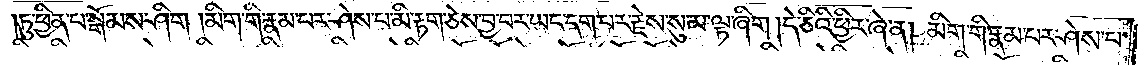ཏུ་ཕྱིན་པ་སྒོམས་ཤིག །མིག་གི་རྣམ་པར་ཤེས་པ་མི་རྟག་ཅེས་བྱ་བར་ཡང་དག་པར་རྗེས་སུ་མ་ལྟ་ཞིག །དེ་ཅིའི་ཕྱིར་ཞེ་ན། མིག་གི་རྣམ་པར་ཤེས་པ་
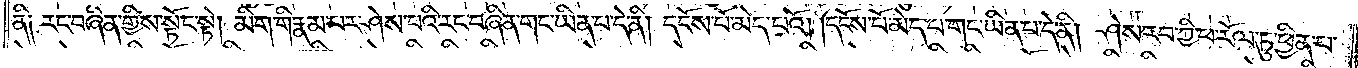ནི༑ རང་བཞིན་གྱིས་སྟོང་སྟེ། མིག་གི་རྣམ་པར་ཤེས་པའི་རང་བཞིན་གང་ཡིན་པ་དེ་ནི། དངོས་པོ་མེད་པའོ། །དངོས་པོ་མེད་པ་གང་ཡིན་པ་དེ་ནི། ཤེས་རབ་ཀྱི་ཕ་རོལ་ཏུ་ཕྱིན་པ་
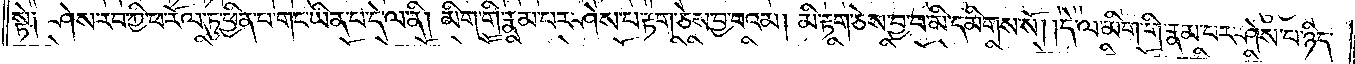སྟེ༑ ཤེས་རབ་ཀྱི་ཕ་རོལ་ཏུ་ཕྱིན་པ་གང་ཡིན་པ་དེ་ལ་ནི། མིག་གི་རྣམ་པར་ཤེས་པ་རྟག་ཅེས་བྱ་བའམ། མི་རྟག་ཅེས་བྱ་བ་མི་དམིགས་སོ། །དེ་ལ་མིག་གི་རྣམ་པར་ཤེས་པ་ཉིད་
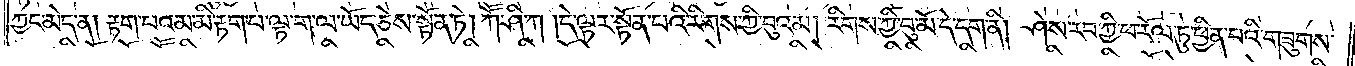ཀྱང་མེད་ན། རྟག་པའམ་མི་རྟག་པ་ལྟ་ག་ལ་ཡོད་ཅེས་སྟོན་ཏེ། ཀཽ་ཤི་ཀ། དེ་ལྟར་སྟོན་པའི་རིགས་ཀྱི་བུའམ། རིགས་ཀྱི་བུ་མོ་དེ་དག་ནི། ཤེས་རབ་ཀྱི་ཕ་རོལ་ཏུ་ཕྱིན་པའི་གཟུགས་
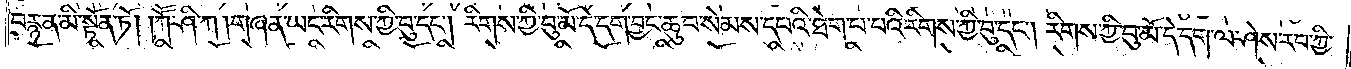བརྙན་མི་སྟོན་ཏོ། །ཀཽ་ཤི་ཀ། གཞན་ཡང་རིགས་ཀྱི་བུ་དང༌། རིགས་ཀྱི་བུ་མོ་དེ་དག་བྱང་ཆུབ་སེམས་དཔའི་ཐེག་པ་པའི་རིགས་ཀྱི་བུ་དང༌། རིགས་ཀྱི་བུ་མོ་དེ་དག་ལ་ཤེས་རབ་ཀྱི་
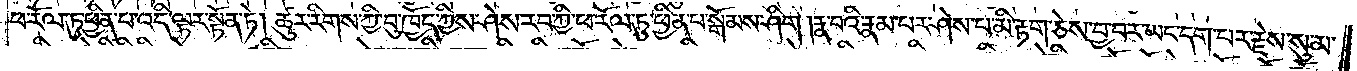ཕ་རོལ་ཏུ་ཕྱིན་པ་འདི་ལྟར་སྟོན་ཏེ། ཚུར་རིགས་ཀྱི་བུ་ཁྱོད་ཀྱིས་ཤེས་རབ་ཀྱི་ཕ་རོལ་ཏུ་ཕྱིན་པ་སྒོམས་ཤིག །རྣ་བའི་རྣམ་པར་ཤེས་པ་མི་རྟག་ཅེས་བྱ་བར་ཡང་དག་པར་རྗེས་སུ་མ་
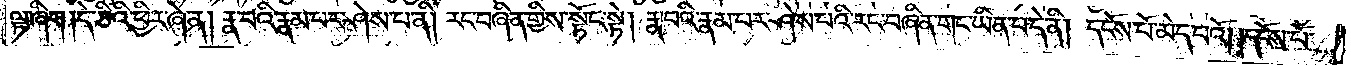ལྟ་ཞིག །དེ་ཅིའི་ཕྱིར་ཞེ་ན། རྣ་བའི་རྣམ་པར་ཤེས་པ་ནི། རང་བཞིན་གྱིས་སྟོང་སྟེ། རྣ་བའི་རྣམ་པར་ཤེས་པའི་རང་བཞིན་གང་ཡིན་པ་དེ་ནི། དངོས་པོ་མེད་པའོ། །དངོས་པོ་
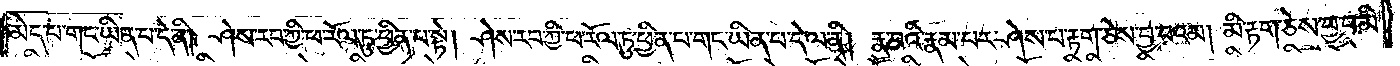མེད་པ་གང་ཡིན་པ་དེ་ནི། ཤེས་རབ་ཀྱི་ཕ་རོལ་ཏུ་ཕྱིན་པ་སྟེ། ཤེས་རབ་ཀྱི་ཕ་རོལ་ཏུ་ཕྱིན་པ་གང་ཡིན་པ་དེ་ལ་ནི། རྣ་བའི་རྣམ་པར་ཤེས་པ་རྟག་ཅེས་བྱ་བའམ། མི་རྟག་ཅེས་བྱ་བ་མི་
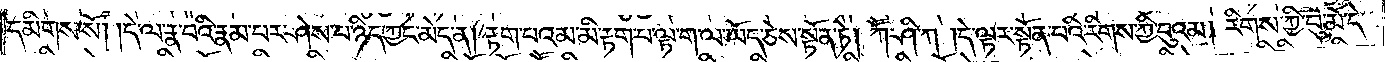དམིགས་སོ། །དེ་ལ་རྣ་བའི་རྣམ་པར་ཤེས་པ་ཉིད་ཀྱང་མེད་ན། རྟག་པའམ་མི་རྟག་པ་ལྟ་ག་ལ་ཡོད་ཅེས་སྟོན་ཏེ། ཀཽ་ཤི་ཀ། དེ་ལྟར་སྟོན་པའི་རིགས་ཀྱི་བུའམ། རིགས་ཀྱི་བུ་མོ་དེ་
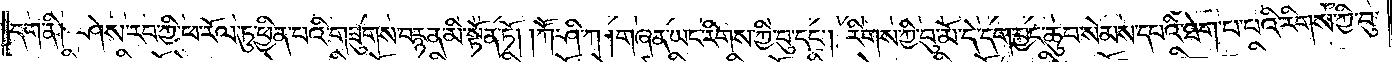དག་ནི། ཤེས་རབ་ཀྱི་ཕ་རོལ་ཏུ་ཕྱིན་པའི་གཟུགས་བརྙན་མི་སྟོན་ཏོ། །ཀཽ་ཤི་ཀ། གཞན་ཡང་རིགས་ཀྱི་བུ་དང༌། རིགས་ཀྱི་བུ་མོ་དེ་དག་བྱང་ཆུབ་སེམས་དཔའི་ཐེག་པ་པའི་རིགས་ཀྱི་བུ་
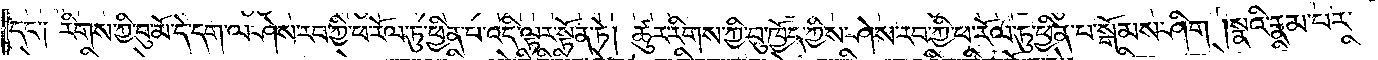དང་༑ རིགས་ཀྱི་བུ་མོ་དེ་དག་ལ་ཤེས་རབ་ཀྱི་ཕ་རོལ་ཏུ་ཕྱིན་པ་འདི་ལྟར་སྟོན་ཏེ། ཚུར་རིགས་ཀྱི་བུ་ཁྱོད་ཀྱིས་ཤེས་རབ་ཀྱི་ཕ་རོལ་ཏུ་ཕྱིན་པ་སྒོམས་ཤིག །སྣའི་རྣམ་པར་
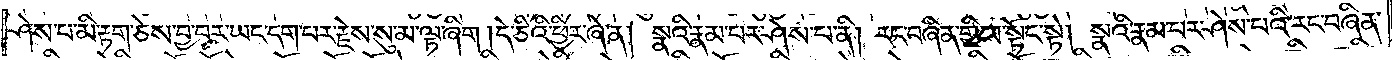ཤེས་པ་མི་རྟག་ཅེས་བྱ་བར་ཡང་དག་པར་རྗེས་སུ་མ་ལྟ་ཞིག །དེ་ཅིའི་ཕྱིར་ཞེ་ན། སྣའི་རྣམ་པར་ཤེས་པ་ནི། རང་བཞིན་གྱིས་སྟོང་སྟེ། སྣའི་རྣམ་པར་ཤེས་པའི་རང་བཞིན་
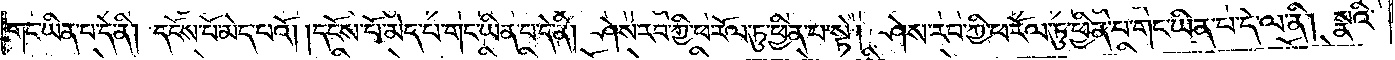གང་ཡིན་པ་དེ་ནི། དངོས་པོ་མེད་པའོ། །དངོས་པོ་མེད་པ་གང་ཡིན་པ་དེ་ནི། ཤེས་རབ་ཀྱི་ཕ་རོལ་ཏུ་ཕྱིན་པ་སྟེ། ཤེས་རབ་ཀྱི་ཕ་རོལ་ཏུ་ཕྱིན་པ་གང་ཡིན་པ་དེ་ལ་ནི། སྣའི་
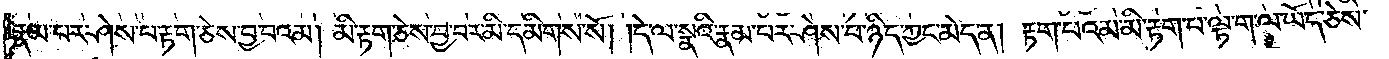རྣམ་པར་ཤེས་པ་རྟག་ཅེས་བྱ་བའམ། མི་རྟག་ཅེས་བྱ་བ་མི་དམིགས་སོ། །དེ་ལ་སྣའི་རྣམ་པར་ཤེས་པ་ཉིད་ཀྱང་མེད་ན། རྟག་པའམ་མི་རྟག་པ་ལྟ་ག་ལ་ཡོད་ཅེས་
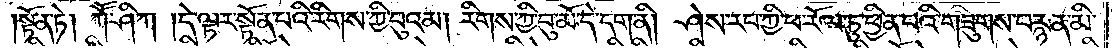སྟོན་ཏེ། ཀཽ་ཤི་ཀ། དེ་ལྟར་སྟོན་པའི་རིགས་ཀྱི་བུའམ། རིགས་ཀྱི་བུ་མོ་དེ་དག་ནི། ཤེས་རབ་ཀྱི་ཕ་རོལ་ཏུ་ཕྱིན་པའི་གཟུགས་བརྙན་མི་
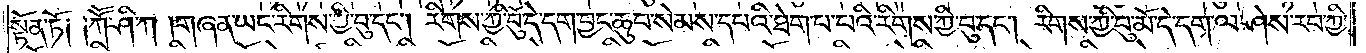སྟོན་ཏོ༑ ༑ཀཽ་ཤི་ཀ། གཞན་ཡང་རིགས་ཀྱི་བུ་དང༌། རིགས་ཀྱི་བུ་མོ་དེ་དག་བྱང་ཆུབ་སེམས་དཔའི་ཐེག་པ་པའི་རིགས་ཀྱི་བུ་དང༌། རིགས་ཀྱི་བུ་མོ་དེ་དག་ལ་ཤེས་རབ་ཀྱི་
